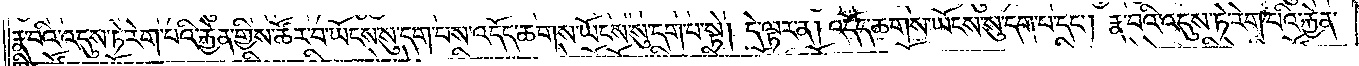རྣ་བའི་འདུས་ཏེ་རེག་པའི་རྐྱེན་གྱིས་ཚོར་བ་ཡོངས་སུ་དག་པས་འདོད་ཆགས་ཡོངས་སུ་དག་པ་སྟེ། དེ་ལྟར་ན། འདོད་ཆགས་ཡོངས་སུ་དག་པ་དང༌། རྣ་བའི་འདུས་ཏེ་རེག་པའི་རྐྱེན་
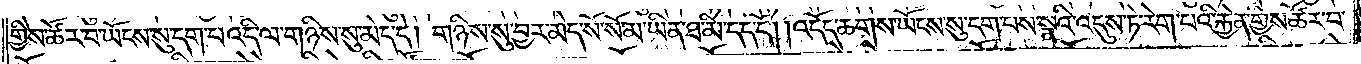གྱིས་ཚོར་བ་ཡོངས་སུ་དག་པ་འདི་ལ་གཉིས་སུ་མེད་དེ། གཉིས་སུ་བྱར་མེད་སོ་སོ་མ་ཡིན་ཐ་མི་དད་དོ། །འདོད་ཆགས་ཡོངས་སུ་དག་པས་སྣའི་འདུས་ཏེ་རེག་པའི་རྐྱེན་གྱིས་ཚོར་བ་
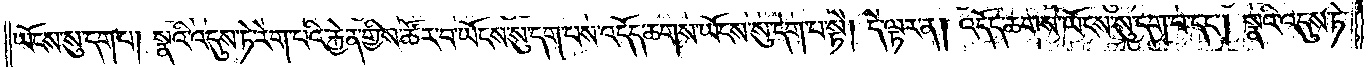ཡོངས་སུ་དག་པ། སྣའི་འདུས་ཏེ་རེག་པའི་རྐྱེན་གྱིས་ཚོར་བ་ཡོངས་སུ་དག་པས་འདོད་ཆགས་ཡོངས་སུ་དག་པ་སྟེ། དེ་ལྟར་ན། འདོད་ཆགས་ཡོངས་སུ་དག་པ་དང༌། སྣའི་འདུས་ཏེ་
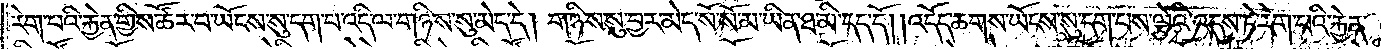རེག་པའི་རྐྱེན་གྱིས་ཚོར་བ་ཡོངས་སུ་དག་པ་འདི་ལ་གཉིས་སུ་མེད་དེ། གཉིས་སུ་བྱར་མེད་སོ་སོ་མ་ཡིན་ཐ་མི་དད་དོ། །འདོད་ཆགས་ཡོངས་སུ་དག་པས་ལྕེའི་འདུས་ཏེ་རེག་པའི་རྐྱེན་
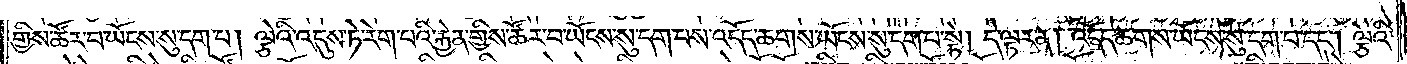གྱིས་ཚོར་བ་ཡོངས་སུ་དག་པ། ལྕེའི་འདུས་ཏེ་རེག་པའི་རྐྱེན་གྱིས་ཚོར་བ་ཡོངས་སུ་དག་པས་འདོད་ཆགས་ཡོངས་སུ་དག་པ་སྟེ། དེ་ལྟར་ན། འདོད་ཆགས་ཡོངས་སུ་དག་པ་དང༌། ལྕེའི་
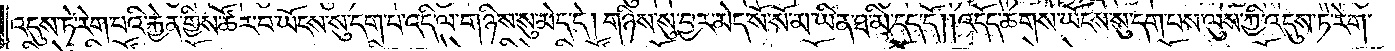འདུས་ཏེ་རེག་པའི་རྐྱེན་གྱིས་ཚོར་བ་ཡོངས་སུ་དག་པ་འདི་ལ་གཉིས་སུ་མེད་དེ། གཉིས་སུ་བྱར་མེད་སོ་སོ་མ་ཡིན་ཐ་མི་དད་དོ། །འདོད་ཆགས་ཡོངས་སུ་དག་པས་ལུས་ཀྱི་འདུས་ཏེ་རེག་
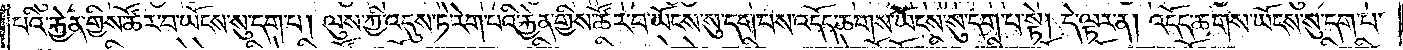པའི་རྐྱེན་གྱིས་ཚོར་བ་ཡོངས་སུ་དག་པ། ལུས་ཀྱི་འདུས་ཏེ་རེག་པའི་རྐྱེན་གྱིས་ཚོར་བ་ཡོངས་སུ་དག་པས་འདོད་ཆགས་ཡོངས་སུ་དག་པ་སྟེ། དེ་ལྟར་ན། འདོད་ཆགས་ཡོངས་སུ་དག་པ་
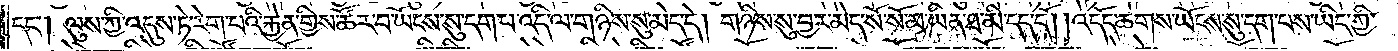དང༌། ལུས་ཀྱི་འདུས་ཏེ་རེག་པའི་རྐྱེན་གྱིས་ཚོར་བ་ཡོངས་སུ་དག་པ་འདི་ལ་གཉིས་སུ་མེད་དེ། གཉིས་སུ་བྱར་མེད་སོ་སོ་མ་ཡིན་ཐ་མི་དད་དོ། །འདོད་ཆགས་ཡོངས་སུ་དག་པས་ཡིད་ཀྱི་
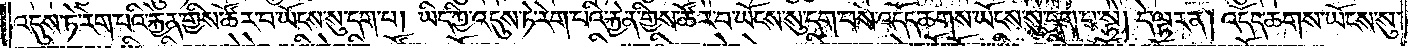འདུས་ཏེ་རེག་པའི་རྐྱེན་གྱིས་ཚོར་བ་ཡོངས་སུ་དག་པ། ཡིད་ཀྱི་འདུས་ཏེ་རེག་པའི་རྐྱེན་གྱིས་ཚོར་བ་ཡོངས་སུ་དག་པས་འདོད་ཆགས་ཡོངས་སུ་དག་པ་སྟེ། དེ་ལྟར་ན། འདོད་ཆགས་ཡོངས་སུ་
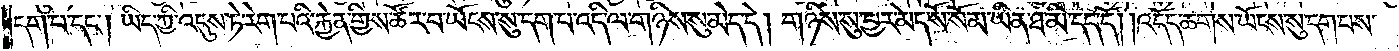དག་པ་དང༌། ཡིད་ཀྱི་འདུས་ཏེ་རེག་པའི་རྐྱེན་གྱིས་ཚོར་བ་ཡོངས་སུ་དག་པ་འདི་ལ་གཉིས་སུ་མེད་དེ། གཉིས་སུ་བྱར་མེད་སོ་སོ་མ་ཡིན་ཐ་མི་དད་དོ། །འདོད་ཆགས་ཡོངས་སུ་དག་པས་
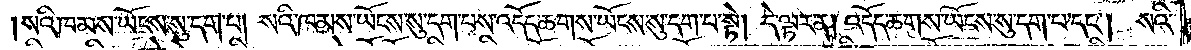སའི་ཁམས་ཡོངས་སུ་དག་པ། སའི་ཁམས་ཡོངས་སུ་དག་པས་འདོད་ཆགས་ཡོངས་སུ་དག་པ་སྟེ། དེ་ལྟར་ན། འདོད་ཆགས་ཡོངས་སུ་དག་པ་དང༌། སའི་
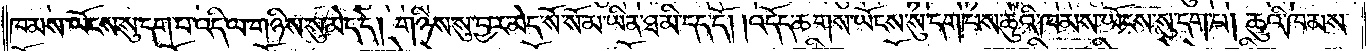ཁམས་ཡོངས་སུ་དག་པ་འདི་ལ་གཉིས་སུ་མེད་དེ། གཉིས་སུ་བྱར་མེད་སོ་སོ་མ་ཡིན་ཐ་མི་དད་དོ། །འདོད་ཆགས་ཡོངས་སུ་དག་པས་ཆུའི་ཁམས་ཡོངས་སུ་དག་པ། ཆུའི་ཁམས་
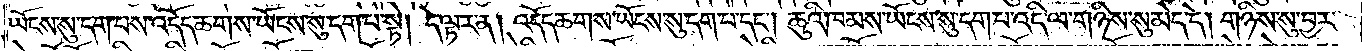ཡོངས་སུ་དག་པས་འདོད་ཆགས་ཡོངས་སུ་དག་པ་སྟེ། དེ་ལྟར་ན། འདོད་ཆགས་ཡོངས་སུ་དག་པ་དང༌། ཆུའི་ཁམས་ཡོངས་སུ་དག་པ་འདི་ལ་གཉིས་སུ་མེད་དེ། གཉིས་སུ་བྱར་
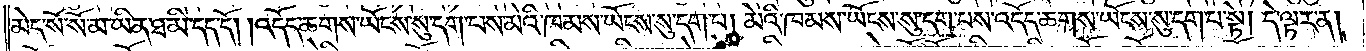མེད་སོ་སོ་མ་ཡིན་ཐ་མི་དད་དོ། །འདོད་ཆགས་ཡོངས་སུ་དག་པས་མེའི་ཁམས་ཡོངས་སུ་དག་པ། མེའི་ཁམས་ཡོངས་སུ་དག་པས་འདོད་ཆགས་ཡོངས་སུ་དག་པ་སྟེ། དེ་ལྟར་ན།
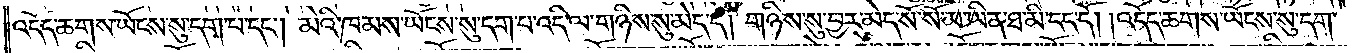འདོད་ཆགས་ཡོངས་སུ་དག་པ་དང༌། མེའི་ཁམས་ཡོངས་སུ་དག་པ་འདི་ལ་གཉིས་སུ་མེད་དེ། གཉིས་སུ་བྱར་མེད་སོ་སོ་མ་ཡིན་ཐ་མི་དད་དོ། །འདོད་ཆགས་ཡོངས་སུ་དག་
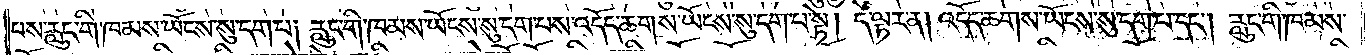པས་རླུང་གི་ཁམས་ཡོངས་སུ་དག་པ། རླུང་གི་ཁམས་ཡོངས་སུ་དག་པས་འདོད་ཆགས་ཡོངས་སུ་དག་པ་སྟེ། དེ་ལྟར་ན། འདོད་ཆགས་ཡོངས་སུ་དག་པ་དང༌། རླུང་གི་ཁམས་
